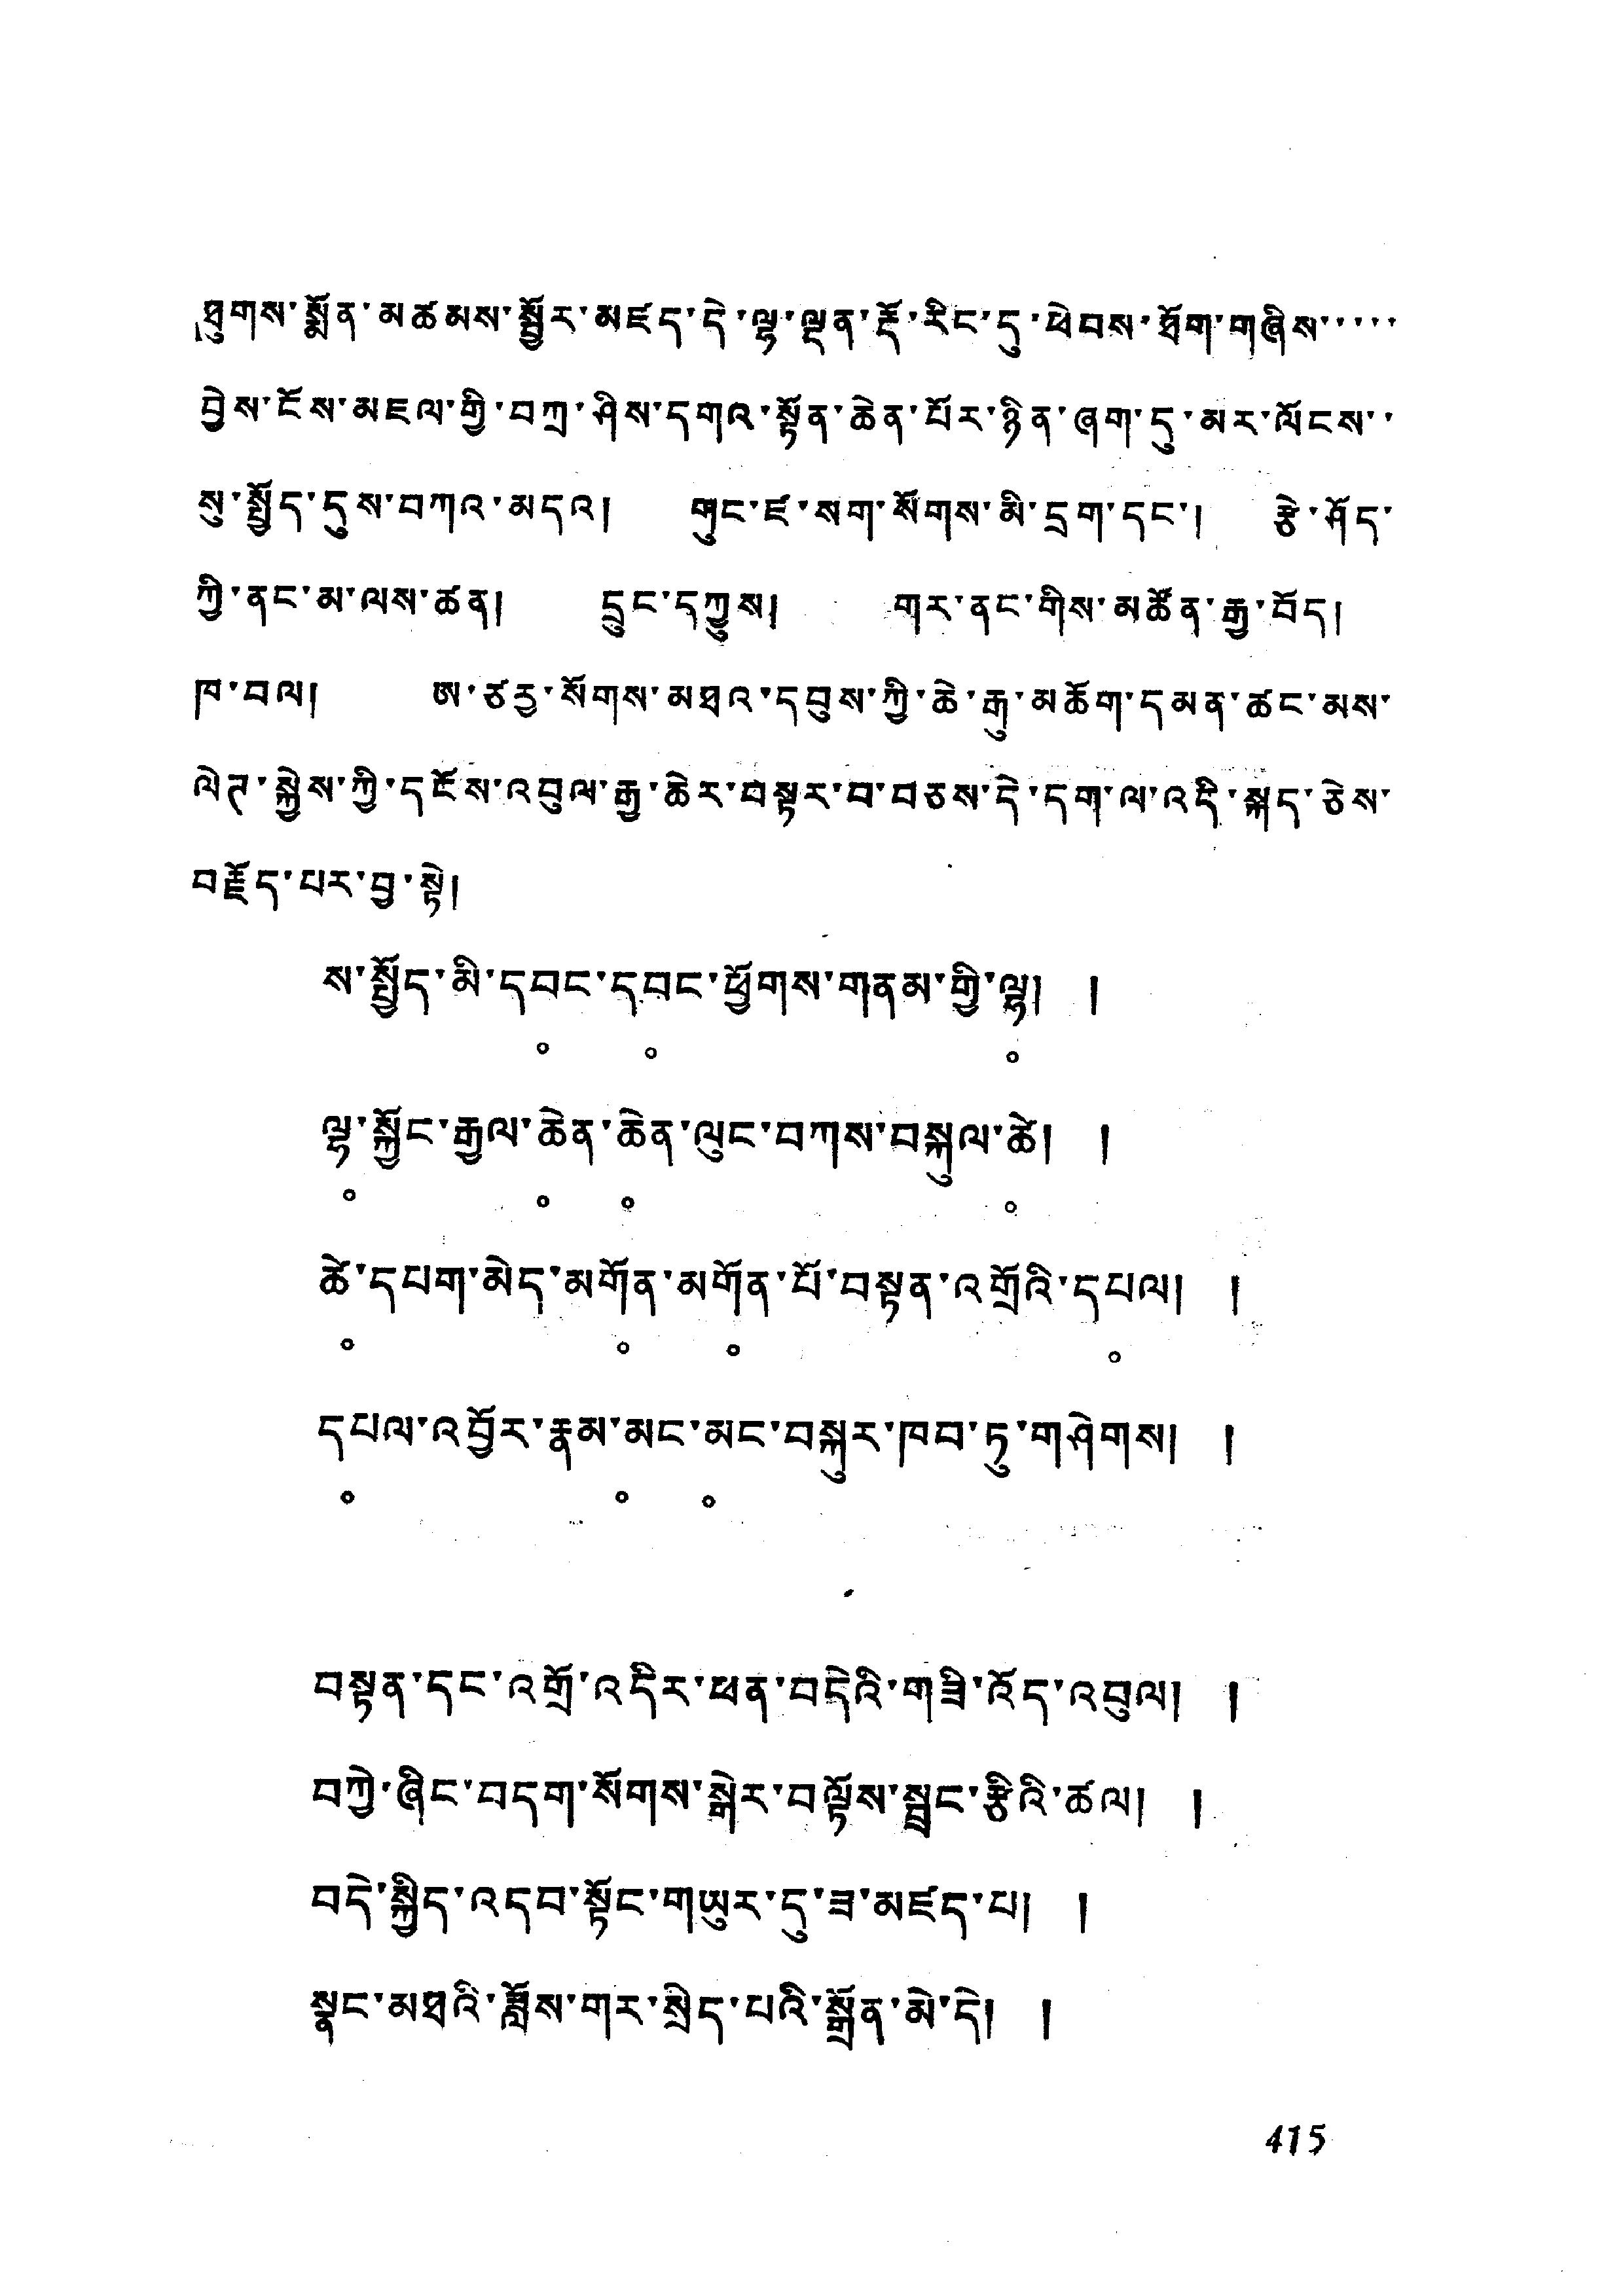ཐུགས་སྨོན་མཚམས་སྦྱོར་མཛད་དེ་ལྷ་ལྡན་རྡོ་རིང་དུ་ཕེབས་ཐོག་གཞིས་་་་་
བྱེས་ངོས་མཇལ་གྱི་བཀྲ་ཤིས་དགའ་སྟོན་ཆེན་པོར་ཉིན་ཞག་དུ་མར་ལོངས་་
སུ་སྤྱོད་དུས་བཀའ་མདའ། གུང་ཛ་སག་སོགས་མི་དྲག་དང། རྩེ་ཤོད་
ཀྱི་ནང་མ་ལས་ཚན། དྲུང་དཀྱུས། གར་ནང་གིས་མཚོན་རྒྱ་བོད།
ཁ་བལ། ཨ་ཙརྱ་སོགས་མཐའ་དབུས་ཀྱི་ཆེ་རྒུ་མཆོག་དམན་ཚང་མས་
ལེཊ་སྐྱེས་ཀྱི་དངོས་འབུལ་རྒྱ་ཆེར་བསྟར་བ་བཅས་དེ་དག་ལ་འདི་སྐད་ཅེས་
བརྗོད་པར་བྱ་སྟེ།
ས་སྤྱོད་མི་དབ༷ང་དབ༷ང་ཕྱོགས་གནམ་གྱི་ལྷ༷། །
ལྷ༷་སྐྱོང་རྒྱལ་ཆེ༷ན་ཆེ༷ན་ལུང་བཀས་བསྐུལ་ཚེ༷། །
ཚེ༷་དཔག་མེད་མགོ༷ན་མགོ༷ན་པོ་བསྟན་འགྲོའི་དཔ༷ལ། །
དཔ༷ལ་འབྱོར་རྣམ་མ༷ང་མ༷ང་བསྐུར་ཁབ་ཏུ་གཤེགས། །
བསྟན་དང་འགྲོ་འདིར་ཕན་བདེའི་གཟི་འོད་འབུལ། །
བཀྱེ་ཞིང་བདག་སོགས་སྒེར་བལྟོས་སྦྲང་རྩིའི་ཚལ། །
བདེ་སྐྱིད་འདབ་སྟོང་གཡུར་དུ་ཟ་མཛད་པ། །
སྣང་མཐའི་ཟློས་གར་སྲིད་པའི་སྒྲོན་མེ་དེ། །
415
